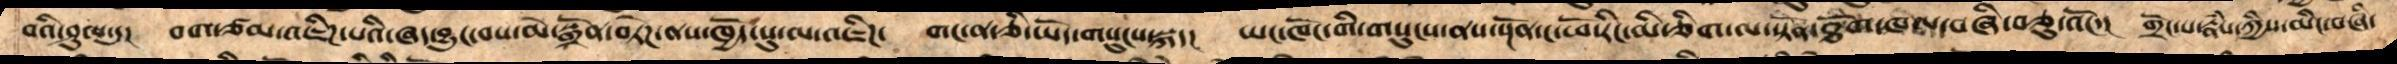བའི་ཤུལ་དུ།   བག་ཙམ་འཇིཌ་པའི་ཞད་བྱུང་བས་མེ་སྒྲོན་བཏེཌ་ནས་ཁྱོད་སུ་ལ་འཇིཌ།   གང་ན་ཅི་ཡོད་གསུངས་སྐད།   ཡང་ཁོང་གི་གསུངས་ནས་སྔོན་ང་ཕོ་རེང་མི་ཅིག་ལ་སྟོན་ཐོག་ཁལ་བཞི་བཅུ་འོང་།   གྲོང་པ་རྣཾས་ཀྱིས་མིང་བཞི་
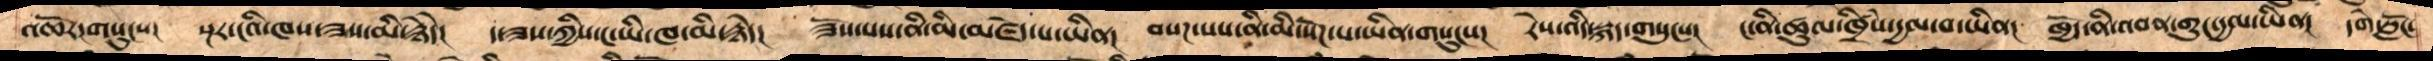འཆོར་གསུངས།   སྔར་ངའི་ཁས་ཟས་་མི་རྙེདེ།   ད་ཟས་ཀྱིས་ང་ཡི་ཁ་མི་རྙེད།   ཟོས་པས་ནི་མི་མཛེད་པ་ཡིན།   བསཌ་པས་ནི་མི་སོཌ་པ་ཡིན་གསུངས།  རེས་འདི་སྐད་གསུངས།   ང་ནི་ཚུལ་ཁྲིཾས་དྱལ་བ་ཡིན།   ཁྱོད་ནི་འབན་གུང་དྱལ་ཡིན།   དགེ་སློང་
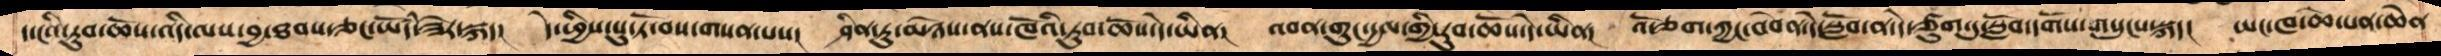ད་ངའི་རུབ་ཆོས་འདི་ལས་བྱ་ཐབས་ཅང་ཡོདཾ་ཟེར་སྐད།   དེ་ཕྱིས་པུ་ཏོ་བས་གསན་པས།  ཤིན་ཏུ་མཉེས་ནས་ཁོའི་རུབ་ཆོས་དེ་ཡིན།   འབན་གུང་དྱལ་གྱི་རུབ་ཆོས་དེ་ཡིན།    འོ་ཅག་ཀྱང་བབེན་དེ་སློབ་ན་དེ་ཙུག་ཏུ་སློབ་དགོས་གསུངས་སྐད།   ཡང་ཁ་ཆེ་པན་ཆེན་
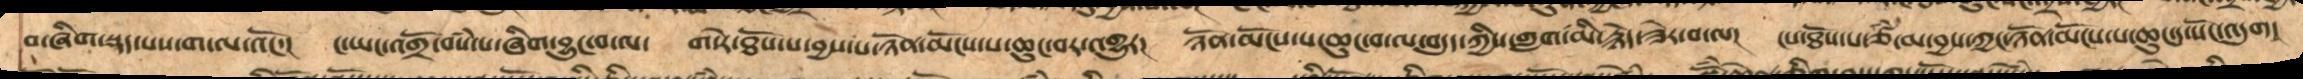བ་ཞིག་སྡད་པས་ག་ལ་འོང་།   ང་ཡང་འགྲོ་བསཾ་པ་ཞིག་བྱུང་བ་ལ།  ག་ེར་ཐོས་པ་བྱས་པ་ཉོན་མོངས་པ་ཆུང་བར་འགྱུར།   ཉོན་མོངས་པ་ཆུང་བ་ལ་བདུད་ཀྱིས་གླག་མི་རྙེད་ཟེར་བ་ལ།   ངས་ཐོས་པ་ཙཾ་མ་བྱས་ཀྱང་ཉོན་མོངས་པ་ཆུང་དུ་སོང་འདུག།
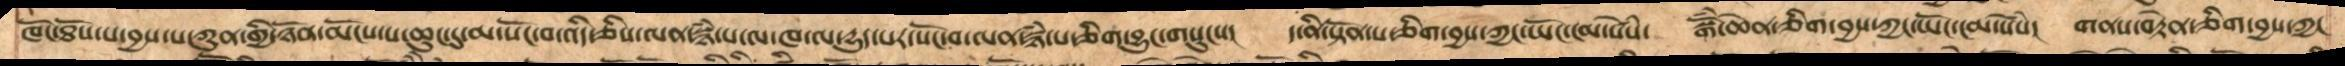ཁོང་ཐོས་པ་བྱས་པ་ཀུན་གྱི་ཉོན་མོངས་པ་ཆུང་དུ་མ་སོང་བ་འདི་ཅིས་ལན་སྙཾ་པ་ལ་ཁ་ལ་དྱུད་པར་སོང་བ་ལན་སྙཾ་པ་ཅིག་བྱུང་གསུངས།   ད་ནི་སྟོན་པ་ཅིག་བྱས་ཀྱང་ཡོང་ངམ་སེཾས།   སྒོཾ་ཆེན་ཅིག་བྱས་ཀྱང་ཡོང་ངམ་སེཾས།  གནས་བརྟེན་ཅིག་བྱས་ཀྱང
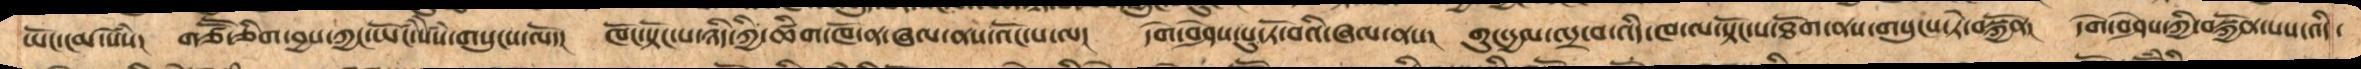ཡོང་ངམ་སེཾས།  གཙཽ་ཅིག་བྱས་ཀྱང་ཡོང་སེཾས་གསུངས་ལོ་།  ཁོང་སྟོང་པ་ཉིད་ཀྱི་ཚིག་ཁོ་ན་ཞལ་ནས་འོང་པ་ལ།   དགེ་བཤེས་པུ་ཏོ་བའི་ཞལ་ནས།   གུང་དྱལ་འདྲ་བ་འདི་ཁ་ལ་སྟོང་པ་ཐོག་ནས་གསུངས་ཏེ་བསྐྱོན། དགེ་བཤེས་ཀྱི་བསྐྱོན་པས་འདི་
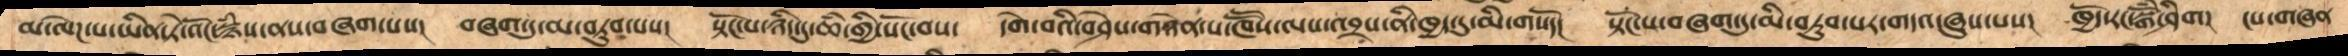མ་ལེཌ་པ་ཡིན་ཏེ་འོང་སྙཾ་ནས་བཞག་པས།   བཞག་དུ་མ་བཏུབ་པས།   སྟོང་པ་ཉིད་དུ་ཆི་གྱི་སོང་བས།   དགེ་བའི་བཤེས་གཉེན་པ་ཁཽས་ལས་འབྲས་ནི་ཁྱད་དུ་མི་གསོད།  སྟོང་པ་བཞག་དུ་མི་བཏུབ་པར་གདའ་ཞུས་པས།  ཁྱོད་རང་སྒོཾ་ཤིག།  ངས་གཞན
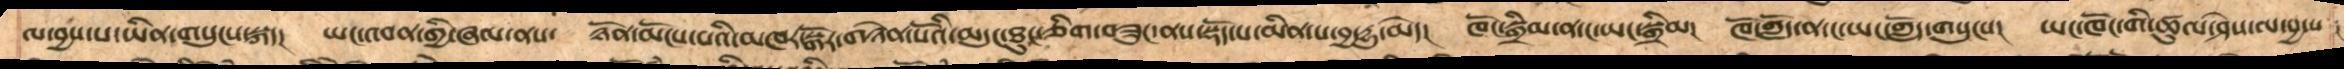ལ་བྱས་པ་ཡིན་གསུངས་སྐད།   ཡང་འབན་གྱི་ཞལ་ནས་  ཉོན་མོངས་པའི་མཁར་སྒོར་གཉེན་པོའི་མདུང་ཐུང་ཅིག་བཟུང་ནས་སྡོད་པ་མིན་པ་བྱ་དྱུ་མེད།  ཁོང་སྒྲིམ་ན་ང་ཡང་སྒྲིམ།   ཁོ་གློད་ན་ང་ཡང་གློད་གསུངས།   ཡང་ཁོང་གི་ཚུལ་ཤེས་ལ་བྱ་པ
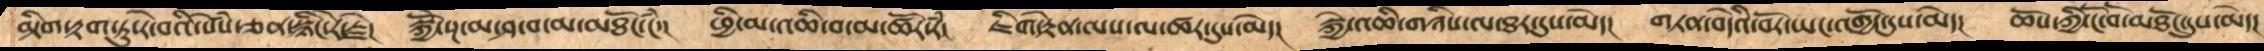མྟིག་རྟག་ཏུ་རེ་བའི་སེཾས་ཅན་སྙིང་རེ་རྗེ།   སྐྱེོ་སྔ་མ་ཤ་བ་མ་མཐོང་ངཾ་།   ཕྱི་མ་འཆི་བ་མ་ཚོར་རཾ།  ཇིག་རྟེན་ལས་ལ་ཚར་དུས་མེད།   སྐྱེ་འཆི་གཉིས་ལ་ཐར་དུས་མེད།   གཏན་བདེའི་བོར་ཡང་འགྱོད་དུས་མེད།   ཆོས་ཀྱི་ངོ་བོ་མཐོང་དུས་མེད།
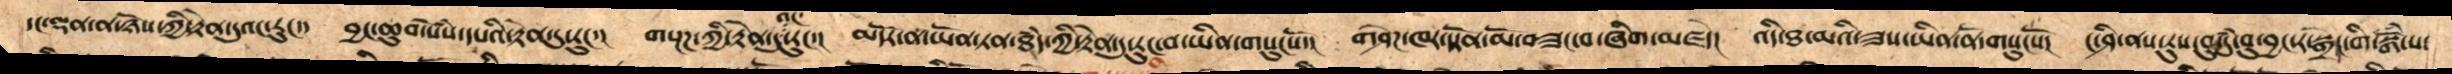དང་ལྡན་ན་ཉེས་ཀྱི་རྟེན་དུའང་རུང་། བྱང་ཆུབ་སེཾས་དཔའི་རྟེན་དུ་རུང་། གསྔཌ་ཀྱི་རྟེན་དུའང་རུང་། མདོར་ན་ཡོན་ཏན་ཐདཾ་ཀྱི་རྟེན་དུ་རུང་བ་ཡིན་གསུངསོ་།  གཤེཌ་ཁར་སྟོན་མོ་བཟང་བ་ཞིག་མཛད། འདི་ཐ་མའི་ཟས་ཡིན་ནོ་གསུངསོ། ང་ཤི་ནས་རུས་བུ་དུཾ་བུ་བྱང་ར་སྒྲེང་སྒོཾ་པ་
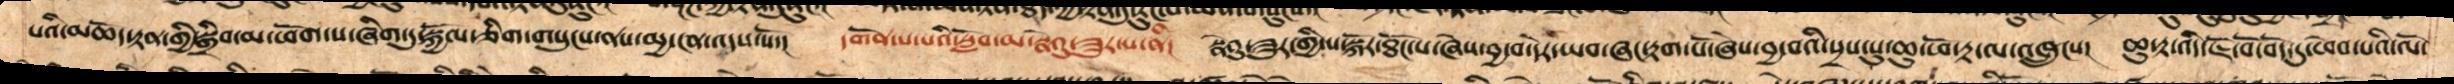པའི་མཆོད་རྟན་གྱི་སྒྲིབ་མ་ཕོག་པ་ཞིག་དུ་སྐྱོལ་ཅིག་གསུངས་ནས་མྱ་ངན་འདས་སོ་།  དགོན་པ་པའི་སློབ་མ་སྣེའུ་ཟུར་པ་ནི། སྣེའུ་ཟེར་གྱི་པ་སྐོར་ཐོང་པ་ཞེས་བྱ་བ་དོར་ཡབ་ཞང་རྟག་པོ་ཞེས་བྱ་སྲས་སུ་ཆུ་ཕོ་རྟ་ལ་འཁྲུངས། ཆུ་རྟ་འདི་ཇོ་བོ་བོད་དུ་ཕེབས་པའི་ལོ
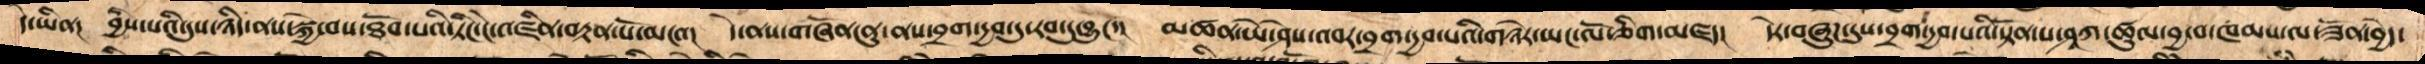དེ་ཡིན།   བྱིས་པའི་དུས་ཉིད་ནས་སྐྱེ་བས་ཐོབ་པའི་ཏིང་ངེ་འཛིན་བརྟན་པོ་མངའ།   དེ་ནས་གཞོན་ནུ་ནས་བྲག་དྱབ་དུ་རབ་དུ་བྱུང་།   མཚན་ཡེ་ཤེས་འབར་བྲག་དྱབ་པའི་གཉེར་ཡང་ལོ་ཅིག་མཛད།    དེར་བཞུཌ་དུས་བྲག་དྱབ་པའི་སྟོན་པ་ཤཱཀ་ཚུལ་བྱ་བ་ཁམས་ལ་ཟོན་བྱེད་
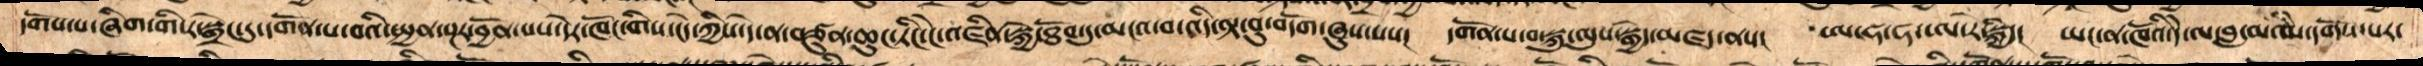དགོས་པ་ཞིག་གི་ར་སྒྲེང་དུ་དགོན་པ་བའི་སྤྱན་སྔར་བྱོན་པས་དེར་ཁོང་གིས་ངེད་ཀྱིས་དེ་ན་བཙུན་ཆུང་ཏིང་ངེ་འཛིན་སྐྱེ་ཐོབ་དུ་མངའ་བ་འདི་ལྟ་བུ་བདོག་ཞུས་པས།  དགོན་པ་བ་སྐུ་ལུས་སྒྱེད་མཛད་ནས།   ཨ་ཧ་ཧ་ཨ་རེ་སྐྱིད།   ཡང་ན་ཁོའི་དེ་ལ་བླ་མ་མི་དགོས་པར་
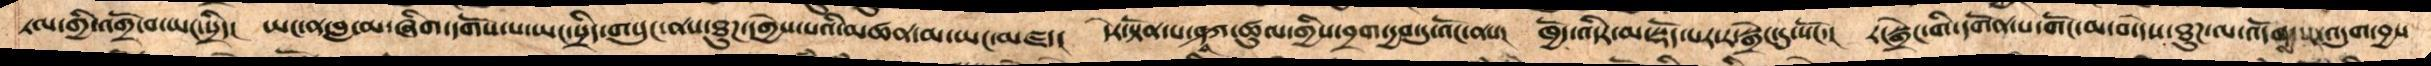ཏལ་གྱི་འགྲོ་བ་ཡང་སྲིད། ཡང་ན་བླ་མ་ཞིག་དགོས་པ་ཡང་སྲིད་གསུང་ནས་ཐུཌ་དགྱེས་པའི་མཚན་མ་ཡང་མཛད། དེར་སྟོན་པ་ཤཱཀ་ཚུལ་གྱིས་བྲག་དྱབ་དུ་འོང་ནས། ཁྱད་འདིར་མ་སྡོད་པར་ར་སྒྲེང་དུ་སོང་། ར་སྒྲེང་གི་དགོན་པ་གོང་མ་བ་དེས་ཐུཌ་ལ་འདོགས་པ་འདུག་བྱས་
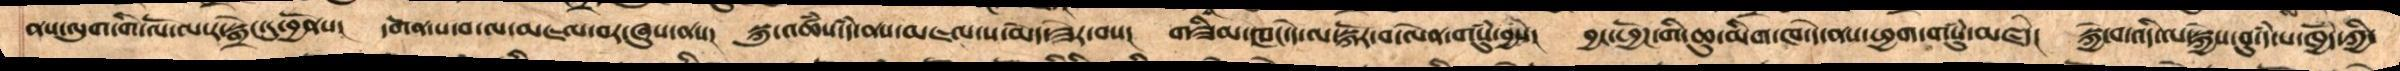ནས་ལུག་གི་ལོ་ལ་ར་སྒྲེང་དུ་བྱོནས།   དགོན་པ་བ་ལ་མཇལ་བར་ཞུས་ནས།   སྐུ་འཚཾས་དཾ་ནས་མཇལ་ས་མེད་ཟེར་བས།   གཟིམ་ཁང་དེ་ལ་སྐོར་བ་ལེན་གསུཾ་བྱས།  བྱང་ཕྱོཌ་གི་ཆུ་མིག་ཁ་དེ་ནས་ཕྱག་གསུཾ་མཛདེ།   སྐྱེ་བ་འདི་ལ་སྐྱེས་བུ་དཾ་པ་ཁྱོད་ཀྱི་
